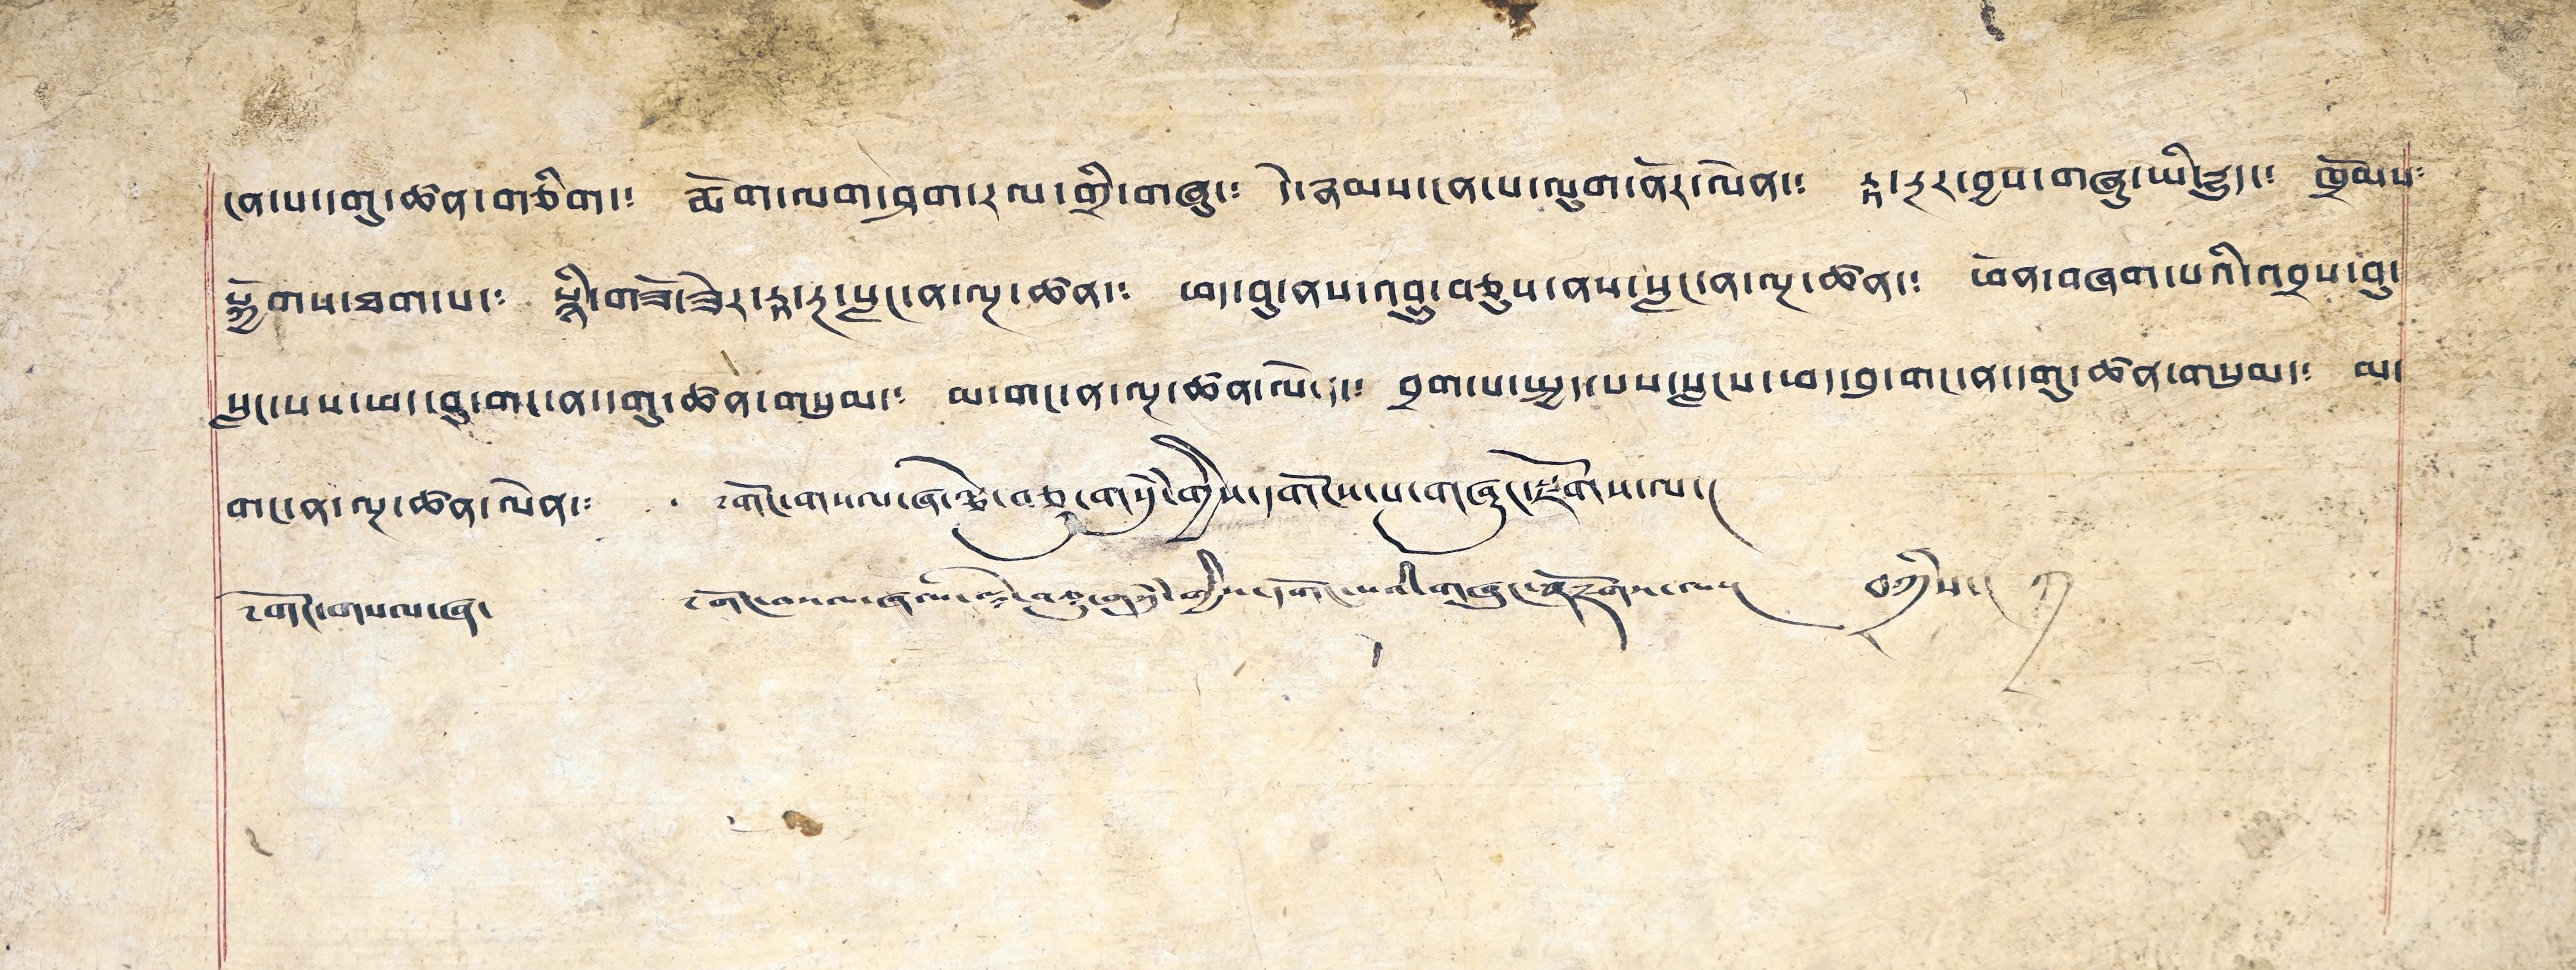ངན་པ་དགུ་ཚན་གཅིག་༴ རྨོག་ལག་ཤག་རལ་གྲི་གཞུ་༴ དེ་རྣམས་ངན་པ་ལུག་ནོར་ལེན་༴ རྟ་རྔར་བྱབ་གཞུ་ཡི་རྒྱུད་༴ ཁྲིམས༴
སྐྱེགས་ཐག་པ་༴ སྙི་གཟོ་ཟེར་རྟ་རྔ་སླང་ན་ལྔ་ཚན་༴ ཕད་བུ་ནས་འབུ་བཅུས་ནས་སླང་ན་ལྔ་ཚན་༴ ཕོན་བཞག་པའི་འབྲས་བུ་
སླང་པས་ཕད་བུ་གང་ན་དགུ་ཚན་གསུམ་༴ མ་གང་ན་ལྔ་ཚན་ལེན་༴ བྲག་པ་སྤྱད་པས་སླངས་ཕད་བུ་གང་ན་དགུ་ཚེན་གསུམ་༴ མ་
གང་ན་ལྔ་ཚེན་ལེན་༴
༢ གོང་གསལ་ཞལྕེ་བཅུ་གསུཾ་གྱིས་དགོངས་པ་གཞུང་རྫོགས་ལ་།
༢ གོང་གསལ་ཞ་
༢ གོང་གསལ་ཞལ་ལྕེ་བཅུ་གསུཾ་གྱིས་དགོང་པའི་གཞུང་རྫོགས་པ་། བཀྲིས་།
